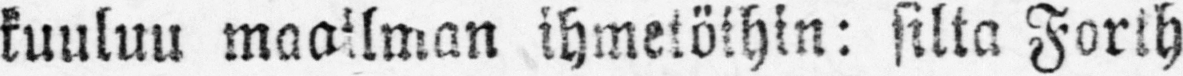kuuluu maailman ihmetöihin: silta Forlh
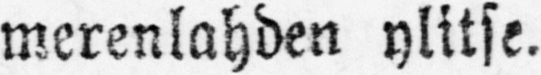merenlahden ylitse.
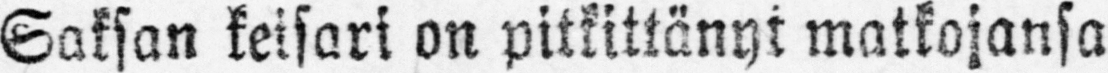Saksan keisari on pitkittänyt matkojansa
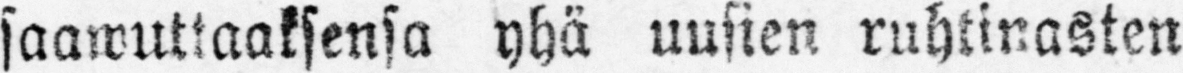saawuttaaksensa yhä uusien ruhtinasten
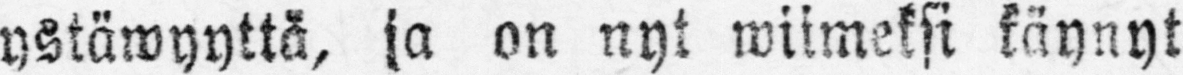ystäwyyttä, ja on nyt wiimeksi käynyt
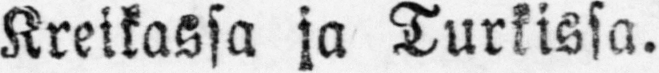Kreikassa ja Turkissa.
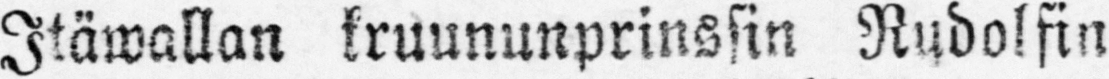Itäwallan kruununprinssin Rudolfin
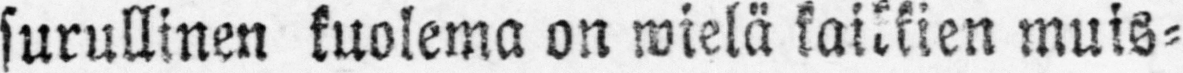surullinen kuolema on wielä kaikkien muis-
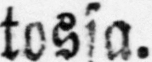tossa.
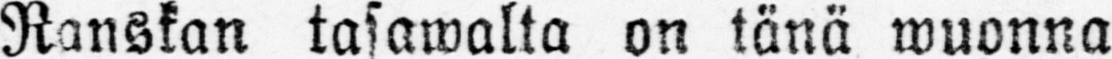Ranskan tasawalta on tänä wuonna
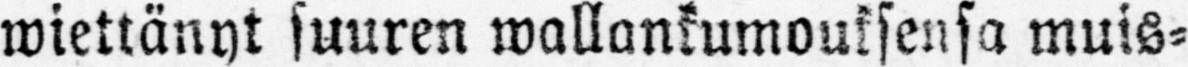wiettänyt suuren wallankumouksensa muis-
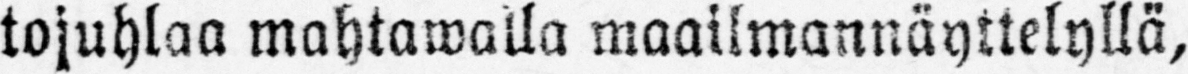tojuhlaa mahtawalla maailmannäyttelyllä,
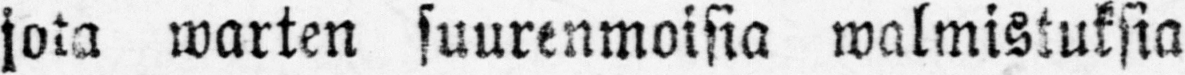jota warten suurenmoisia walmistuksia
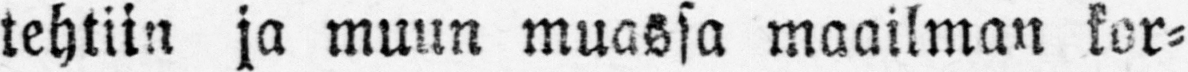tehtiin ja muun muassa maailman kor-
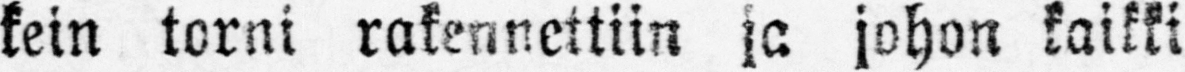kein torni rakennettiin ja johon kaikki
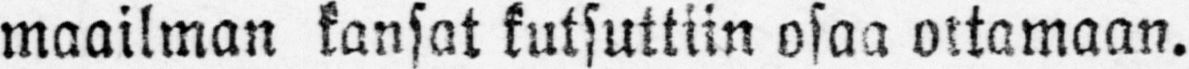maailman kansat kutsuttiin osaa ottamaan.
